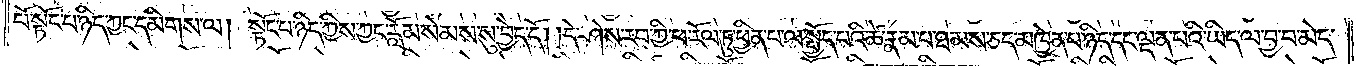པོ་སྟོང་པ་ཉིད་ཀྱང་དམིགས་ལ། སྟོང་པ་ཉིད་ཀྱིས་ཀྱང་རློམ་སེམས་སུ་བྱེད་དོ། །དེ་ཤེས་རབ་ཀྱི་ཕ་རོལ་ཏུ་ཕྱིན་པ་ལ་སྤྱོད་པའི་ཚེ་རྣམ་པ་ཐམས་ཅད་མཁྱེན་པ་ཉིད་དང་ལྡན་པའི་ཡིད་ལ་བྱ་བ་མེད་
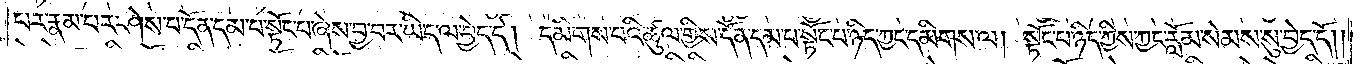པར་རྣམ་པར་ཤེས་པ་དོན་དམ་པ་སྟོང་པ་ཞེས་བྱ་བར་ཡིད་ལ་བྱེད་དེ། དམིགས་པའི་ཚུལ་གྱིས་དོན་དམ་པ་སྟོང་པ་ཉིད་ཀྱང་དམིགས་ལ། སྟོང་པ་ཉིད་ཀྱིས་ཀྱང་རློམ་སེམས་སུ་བྱེད་དོ། །
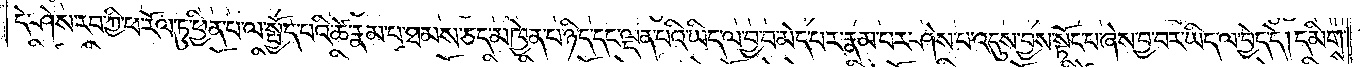དེ་ཤེས་རབ་ཀྱི་ཕ་རོལ་ཏུ་ཕྱིན་པ་ལ་སྤྱོད་པའི་ཚེ་རྣམ་པ་ཐམས་ཅད་མཁྱེན་པ་ཉིད་དང་ལྡན་པའི་ཡིད་ལ་བྱ་བ་མེད་པར་རྣམ་པར་ཤེས་པ་འདུས་བྱས་སྟོང་པ་ཞེས་བྱ་བར་ཡིད་ལ་བྱེད་དེ། དམིགས་
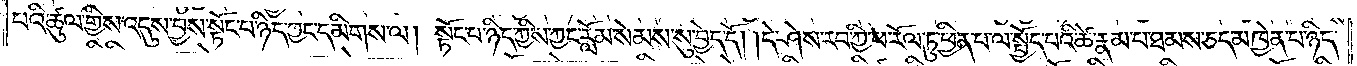པའི་ཚུལ་གྱིས་འདུས་བྱས་སྟོང་པ་ཉིད་ཀྱང་དམིགས་ལ། སྟོང་པ་ཉིད་ཀྱིས་ཀྱང་རློམ་སེམས་སུ་བྱེད་དོ། །དེ་ཤེས་རབ་ཀྱི་ཕ་རོལ་ཏུ་ཕྱིན་པ་ལ་སྤྱོད་པའི་ཚེ་རྣམ་པ་ཐམས་ཅད་མཁྱེན་པ་ཉིད་
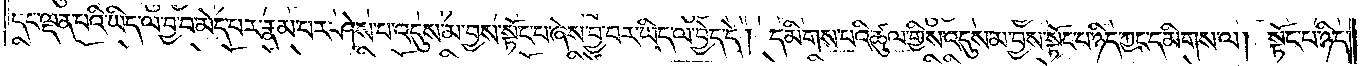དང་ལྡན་པའི་ཡིད་ལ་བྱ་བ་མེད་པར་རྣམ་པར་ཤེས་པ་འདུས་མ་བྱས་སྟོང་པ་ཞེས་བྱ་བར་ཡིད་ལ་བྱེད་དེ། དམིགས་པའི་ཚུལ་གྱིས་འདུས་མ་བྱས་སྟོང་པ་ཉིད་ཀྱང་དམིགས་ལ། སྟོང་པ་ཉིད་
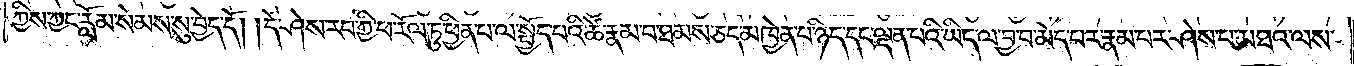ཀྱིས་ཀྱང་རློམ་སེམས་སུ་བྱེད་དོ། །དེ་ཤེས་རབ་ཀྱི་ཕ་རོལ་ཏུ་ཕྱིན་པ་ལ་སྤྱོད་པའི་ཚེ་རྣམ་པ་ཐམས་ཅད་མཁྱེན་པ་ཉིད་དང་ལྡན་པའི་ཡིད་ལ་བྱ་བ་མེད་པར་རྣམ་པར་ཤེས་པ་མཐའ་ལས་
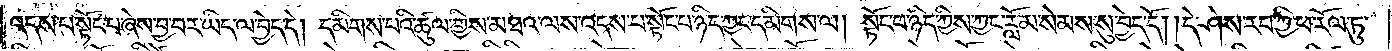འདས་པ་སྟོང་པ་ཞེས་བྱ་བར་ཡིད་ལ་བྱེད་དེ། དམིགས་པའི་ཚུལ་གྱིས་མཐའ་ལས་འདས་པ་སྟོང་པ་ཉིད་ཀྱང་དམིགས་ལ། སྟོང་པ་ཉིད་ཀྱིས་ཀྱང་རློམ་སེམས་སུ་བྱེད་དོ། །དེ་ཤེས་རབ་ཀྱི་ཕ་རོལ་ཏུ་
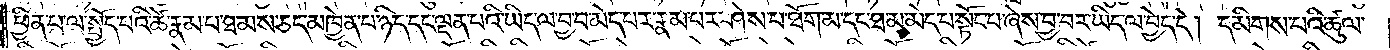ཕྱིན་པ་ལ་སྤྱོད་པའི་ཚེ་རྣམ་པ་ཐམས་ཅད་མཁྱེན་པ་ཉིད་དང་ལྡན་པའི་ཡིད་ལ་བྱ་བ་མེད་པར་རྣམ་པར་ཤེས་པ་ཐོག་མ་དང་ཐ་མ་མེད་པ་སྟོང་པ་ཞེས་བྱ་བར་ཡིད་ལ་བྱེད་དེ། དམིགས་པའི་ཚུལ་
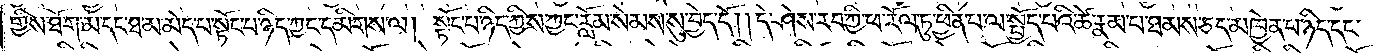གྱིས་ཐོག་མ་དང་ཐ་མ་མེད་པ་སྟོང་པ་ཉིད་ཀྱང་དམིགས་ལ། སྟོང་པ་ཉིད་ཀྱིས་ཀྱང་རློམ་སེམས་སུ་བྱེད་དོ། །དེ་ཤེས་རབ་ཀྱི་ཕ་རོལ་ཏུ་ཕྱིན་པ་ལ་སྤྱོད་པའི་ཚེ་རྣམ་པ་ཐམས་ཅད་མཁྱེན་པ་ཉིད་དང་
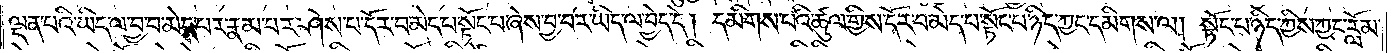ལྡན་པའི་ཡིད་ལ་བྱ་བ་མེད་པར་རྣམ་པར་ཤེས་པ་དོར་བ་མེད་པ་སྟོང་པ་ཞེས་བྱ་བར་ཡིད་ལ་བྱེད་དེ། དམིགས་པའི་ཚུལ་གྱིས་དོར་བ་མེད་པ་སྟོང་པ་ཉིད་ཀྱང་དམིགས་ལ། སྟོང་པ་ཉིད་ཀྱིས་ཀྱང་རློམ་
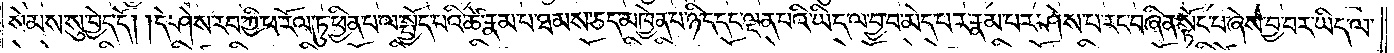སེམས་སུ་བྱེད་དོ། །དེ་ཤེས་རབ་ཀྱི་ཕ་རོལ་ཏུ་ཕྱིན་པ་ལ་སྤྱོད་པའི་ཚེ་རྣམ་པ་ཐམས་ཅད་མཁྱེན་པ་ཉིད་དང་ལྡན་པའི་ཡིད་ལ་བྱ་བ་མེད་པར་རྣམ་པར་ཤེས་པ་རང་བཞིན་སྟོང་པ་ཞེས་བྱ་བར་ཡིད་ལ་
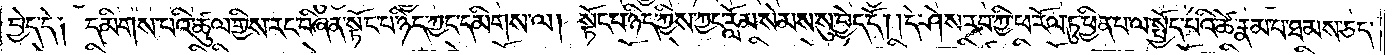བྱེད་དེ༑ དམིགས་པའི་ཚུལ་གྱིས་རང་བཞིན་སྟོང་པ་ཉིད་ཀྱང་དམིགས་ལ། སྟོང་པ་ཉིད་ཀྱིས་ཀྱང་རློམ་སེམས་སུ་བྱེད་དོ། །དེ་ཤེས་རབ་ཀྱི་ཕ་རོལ་ཏུ་ཕྱིན་པ་ལ་སྤྱོད་པའི་ཚེ་རྣམ་པ་ཐམས་ཅད་
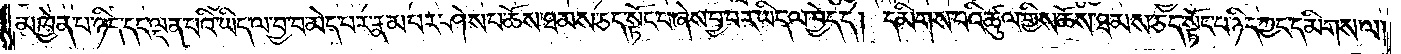མཁྱེན་པ་ཉིད་དང་ལྡན་པའི་ཡིད་ལ་བྱ་བ་མེད་པར་རྣམ་པར་ཤེས་པ་ཆོས་ཐམས་ཅད་སྟོང་པ་ཞེས་བྱ་བར་ཡིད་ལ་བྱེད་དེ། དམིགས་པའི་ཚུལ་གྱིས་ཆོས་ཐམས་ཅད་སྟོང་པ་ཉིད་ཀྱང་དམིགས་ལ།
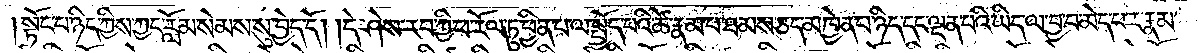སྟོང་པ་ཉིད་ཀྱིས་ཀྱང་རློམ་སེམས་སུ་བྱེད་དོ། །དེ་ཤེས་རབ་ཀྱི་ཕ་རོལ་ཏུ་ཕྱིན་པ་ལ་སྤྱོད་པའི་ཚེ་རྣམ་པ་ཐམས་ཅད་མཁྱེན་པ་ཉིད་དང་ལྡན་པའི་ཡིད་ལ་བྱ་བ་མེད་པར་རྣམ་
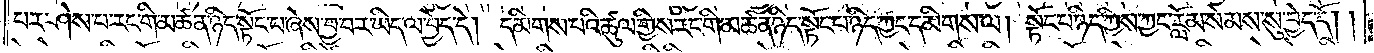པར་ཤེས་པ་རང་གི་མཚན་ཉིད་སྟོང་པ་ཞེས་བྱ་བར་ཡིད་ལ་བྱེད་དེ། དམིགས་པའི་ཚུལ་གྱིས་རང་གི་མཚན་ཉིད་སྟོང་པ་ཉིད་ཀྱང་དམིགས་ལ། སྟོང་པ་ཉིད་ཀྱིས་ཀྱང་རློམ་སེམས་སུ་བྱེད་དོ། །
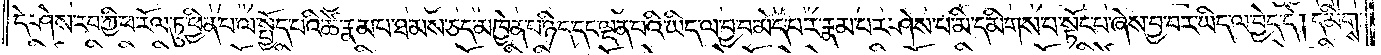དེ་ཤེས་རབ་ཀྱི་ཕ་རོལ་ཏུ་ཕྱིན་པ་ལ་སྤྱོད་པའི་ཚེ་རྣམ་པ་ཐམས་ཅད་མཁྱེན་པ་ཉིད་དང་ལྡན་པའི་ཡིད་ལ་བྱ་བ་མེད་པར་རྣམ་པར་ཤེས་པ་མི་དམིགས་པ་སྟོང་པ་ཞེས་བྱ་བར་ཡིད་ལ་བྱེད་དེ། དམིགས་
